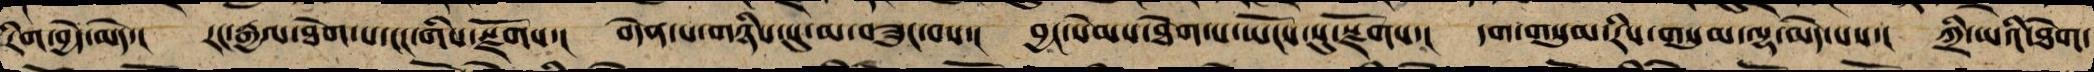རིག་བྱེད་མེད་། རང་རྒྱལ་ཐེག་པ་ངང་གིས་སྫོགས་། བདེན་པ་གཉིས་སུ་མ་བཟུང་བས་། བྱང་སེམས་ཐེག་པ་ཡོངས་སུ་སྫོགས་། དག་གསུམ་རིགས་གསུམ་ལྷ་མེད་པས་། ཀྲི་ཡའི་ཐེག་
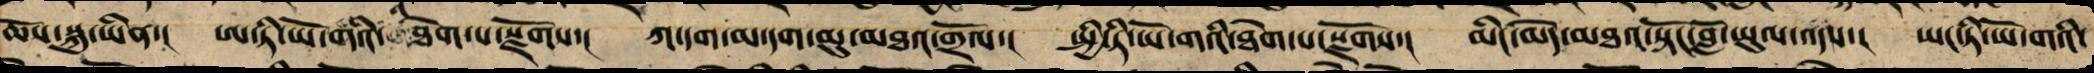ཆོས་སྐུ་ཡིན་། ཨ་ཏི་ཡོ་གའི་ཐེག་པ་སྫོགས་། ཀ་དག་མ་དག་མུ་མཐའ་གྲོལ་། སྤྱི་ཏི་ཡོ་གའི་ཐེག་པ་སྫོགས་། མིང་མེད་མཐའ་སྟོངས་བློ་ཡུལ་འདས་། ཡང་ཏི་ཡོ་གའི་
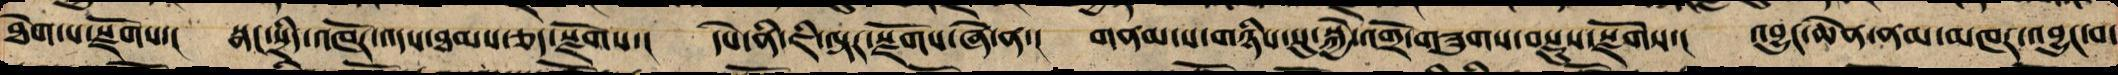ཐེག་པ་སྫོགས་། སྣང་སྲིད་འཁོར་འདས་ཐམས་ཅད་སྫོགས་། དཔེ་ནི་ཇི་ལྟར་སྫོགས་ཞེ་ན་། གནམ་ས་གཉིས་སུ་སྐྱེ་འགྲོ་གཟུགས་བསྡུས་སྫོགས་། འབྱུང་ཆེན་ནམ་མཁར་འབྱུང་བ་
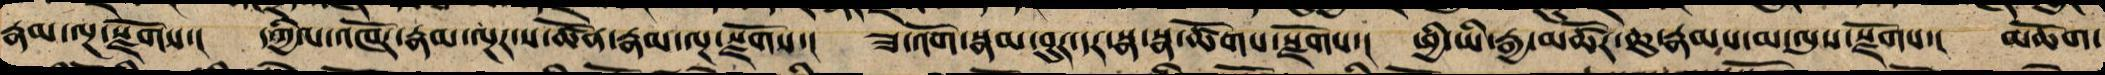རྣམ་ལྔ་སྫོགས་། དཀྱིལ་འཁོར་ཆེན་པོར་ས་ཚོན་རྣམ་ལྔ་སྫོགས་། ཟ་འོག་སྣམ་བུར་དར་སྣ་སྣ་ཚོགས་སྫོགས་། ཕྱི་ཡི་རྒྱ་མཚོར་ཆུ་རྣམས་མ་ལུས་སྫོགས་། མཆོག་
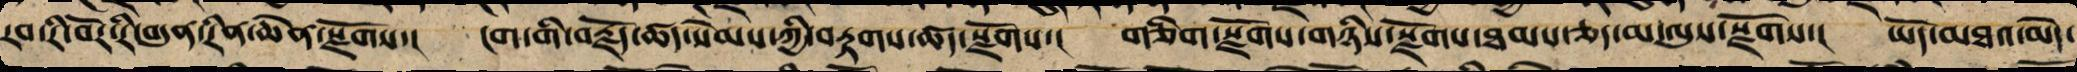རབ་རི་བོར་རི་བདུན་རིན་ཆེན་སྫོགས། ངག་གིས་བརྗོད་ཚད་སེམས་ཀྱིས་བརྟགས་ཚད་སྫོགས་། གཅིག་སྫོགས་གཉིས་སྫོགས་ཐམས་ཅད་མ་ལུས་སྫོགས་། ཡོད་མཐའ་མེད་
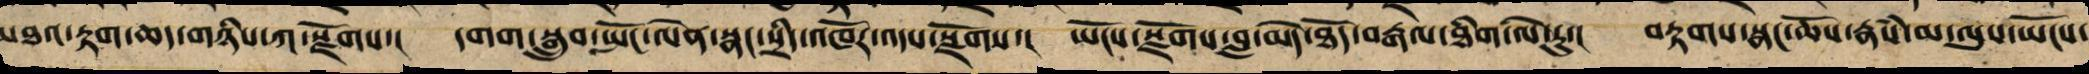མཐའ་རྟག་ཆད་གཉིས་ཀ་སྫོགས་། དགག་སྒྲུབ་སྤང་ལེན་སྣང་སྲིད་འཁོར་འདས་སྫོགས་། ཡོངས་སྫོགས་བླ་མེད་ཐོད་བརྒལ་ཐིག་ལེ་རུ་། བརྟགས་སྣང་ཆོས་རྣཾས་མ་ལུས་ཡོངས་
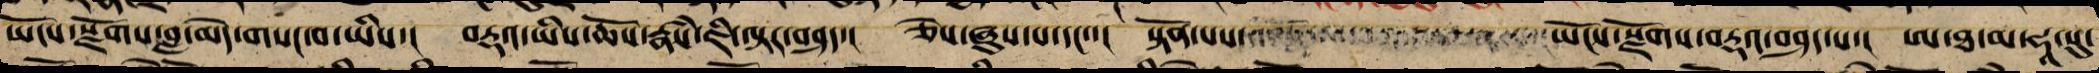ཡོངས་སྫོགས་བླ་མེད་གསང་བ་ཡི་། བརྡའ་ཡི་ཆོས་རྣཾས་ཇི་ལྟར་བཤད་། ཅེས་ཞུས་པ་དང་་། སྟོན་པས་ཡོངས་སྫོགས་བརྡའ་བཤད་པ་། ཨ་ཐ་མ་ཧཱ་སུ་
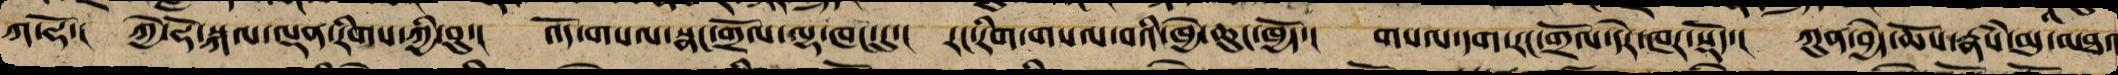ཀ་ཧོ་། ཀྱེ་ཧོ་སྐལ་ལྡན་རིགས་ཀྱི་བུ་། འོད་གསལ་སྣང་གྲོལ་ལྷ་ཁང་དུ་། རང་རིག་གསལ་བའི་ཁྱེ་ཆུང་ཁྱོད་། གསལ་དག་རང་གྲོལ་དེ་ཁར་སྡོད་། ཀུན་བྱེད་ཆོས་རྣཾས་མུ་མཐའ
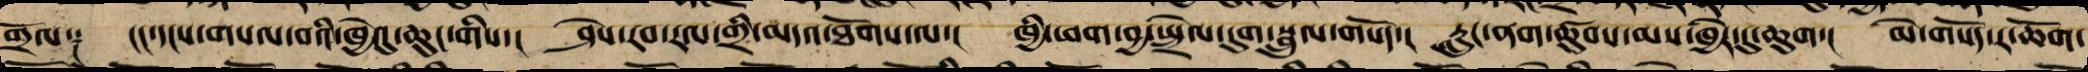གྲོལ༑ ངང་དངས་གསལ་བའི་ཁྱེའུ་ཆུང་གིས་། ཤེས་རབ་རལ་གྲི་མདའ་ཐོགས་ལ་། ཁྱི་ཕག་བྱ་སྤྲེལ་དུག་སྦྲུལ་གསོད་། རླུང་ནག་ཚུབས་མས་ཁྱེར་དུ་ཆུག། མེ་གསོད་ར་ཆོག་
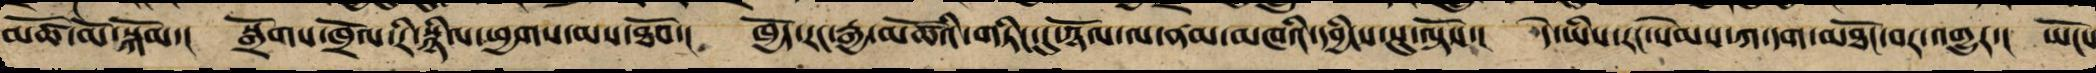མཚོ་མོ་སྐོམ་། སྒྲོགས་ཁྲོལ་རི་སྙིལ་ཕྱགས་མས་ཐོབ་། ཁྱོད་རང་རྒྱ་མཚོའི་གཏིང་དུ་ཉོལ་ལ་ནམ་མཁའི་དབྱིངས་སུ་ལྟོས་། དེ་ཡིས་རང་སེམས་ཀ་དག་མཐོང་བར་འགྱུར་། ཡོངས
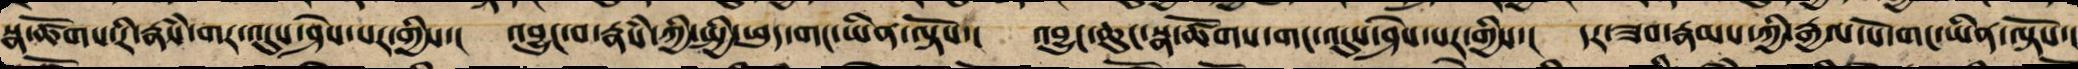སྣ་ཚོགས་རི་རྣཾས་གར་འདུས་ཤེས་པར་གྱིས་། འབྱུང་བ་རྣཾས་ཀྱི་སྤྱི་ཕུད་གང་ཡིན་ལྟོས་། འབྱུང་ཆུང་སྣ་ཚོགས་གར་འདུས་ཤེས་པར་གྱིས་། དར་ཟབ་རྣམས་ཀྱི་རྒྱལ་པོ་གང་ཡིན་ལྟོས་།
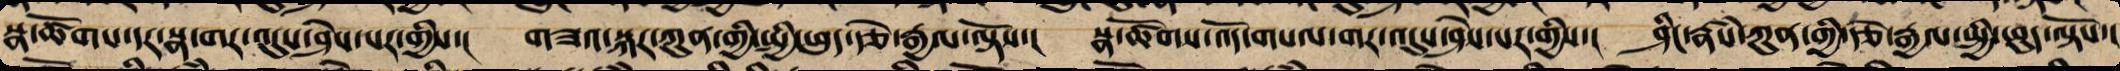སྣ་ཚོགས་དར་སྣ་གར་འདུས་ཤེས་པར་གྱིས་། གཟའ་སྐར་ཀུན་གྱི་སྤྱི་ཕུད་རྩེ་རྒྱལ་ལྟོས་། སྣ་ཚོགས་འོད་རྣམས་གར་འདུས་ཤེས་པར་གྱིས་། ཤིང་རྣཾས་ཀུན་གྱི་རྩེ་རྒྱལ་སྤྱི་ཕུད་ལྟོས་།
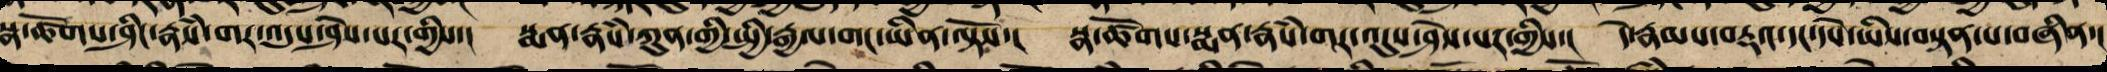སྣ་ཚོགས་ཤིང་རྣཾས་གར་འདུས་ཤེས་པར་གྱིས་། སྨན་རྣཾས་ཀུན་གྱི་སྤྱི་རྒྱལ་གང་ཡིན་ལྟོས་། སྣ་ཚོགས་སྨན་རྣཾས་གར་འདུས་ཤེས་པར་གྱིས་། དེ་རྣམས་བརྡའ་དང་དཔེ་ཡིས་བསྟན་པ་བཞིན་།
